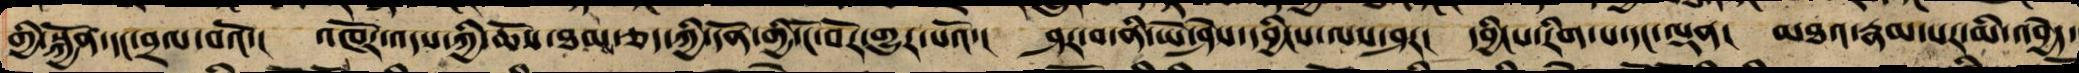གྱི་སྐྱོན་དང་བྲལ་བའོ་། འཁོར་འདས་ཀྱི་ཆོས་ཐམས་ཅད་ཀྱི་དོན་གྱི་ངོ་བོར་གྱུར་པའོ་། ཤར་བ་ནི་ཡེ་ཤེས་དབྱིངས་ལས་ཤར། དབྱིངས་རིག་པ་དང་ལྡན། མཐའ་རྣམ་པར་མི་འབྱེད་
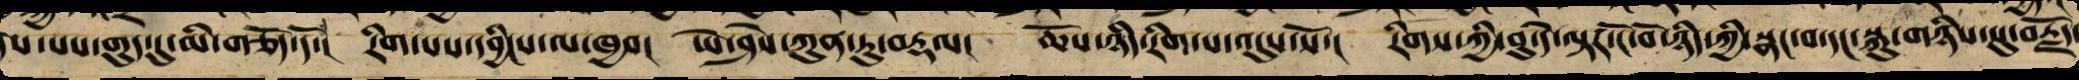ཤེས་པས་གུད་དུ་མི་གཅད་དོ་། རིག་པས་དབྱིངས་ལ་ཁྱབ། ཡེ་ཤེས་ཀུན་ཏུ་བརྡལ། ཆོས་ཉིད་རིག་པར་འདུས་སོ། རིགས་ཀྱི་བུ་དེ་ལྟར་ངོ་བོ་ཉིད་ཀྱི་སྣང་བ་དང་ཆོས་སྐུ་གཉིས་སུ་བརྗོད་
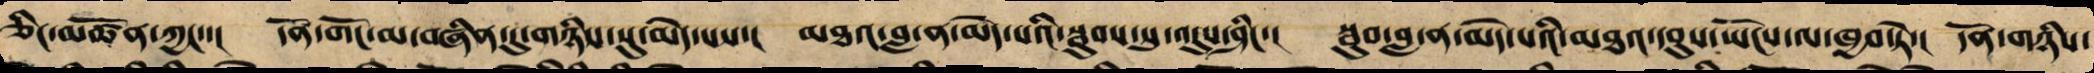ཅིང་མཚོན་ཀྱང་་། དོན་གོང་མ་བཞིན་དུ་གཉིས་སུ་མེད་པས་། མཐའ་བླ་ན་མེད་པའི་སྦུབས་སུ་འདུས་ཤིང་། སྦུབས་བླ་ན་མེད་པས་མཐའ་དབུས་ཡོངས་ལ་ཁྱབ་སྟེ་། དོན་གཉིས་
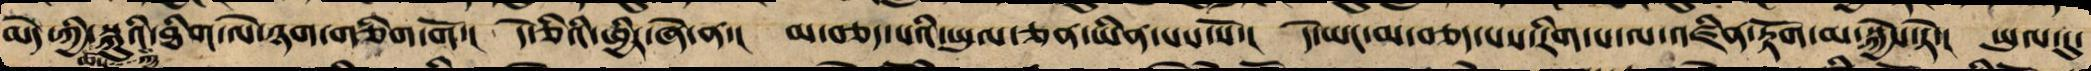མེད་ཆོས་ཀྱི་སྐུའི་ཐིག་ལེ་ཉགགཅིག་གོ་། དེ་ཅིའི་ཕྱིར་ཞེ་ན་། མ་བཅད་པའི་ཡུལ་ཅན་ཡིན་པས་སོ་། དེ་ཡང་མ་བཅད་པས་རིག་པ་ལ་འཛིན་རྟོག་མ་སྐྱེས་ཏེ་། ཡུལ་དུ་
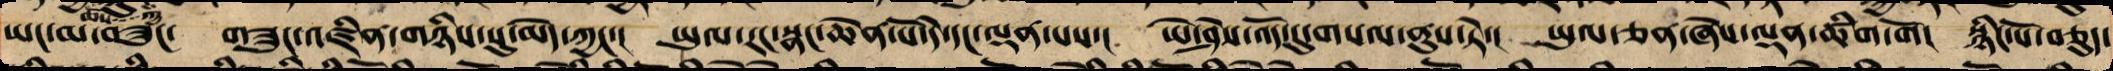ཡང་མ་བཟུང་། གཟུང་འཛིན་གཉིས་སུ་མེད་ཀྱང་། ཡུལ་རང་སྣང་ཆེན་པོ་དེ་དང་ལྡན་པས་། ཡེ་ཤེས་འོད་དུ་གསལ་ནུས་ཏེ་། ཡུལ་ཅན་ཞེས་ལྡན་ཚིག་གོ། སྙིང་པོ་བཅུད་
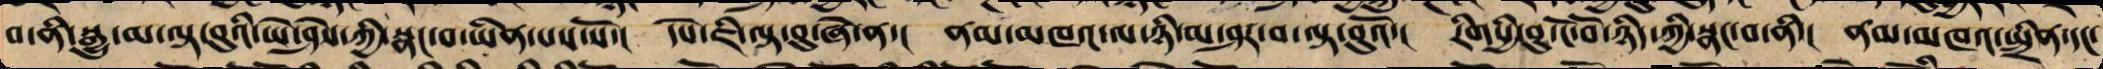བ་ནི་སྒྱུ་མ་ལྟ་བུས་ཡེ་ཤེས་ཀྱི་སྣང་བ་ཡིན་པས་སོ་། དཔེ་ཅི་ལྟ་བུ་ཞེ་ན་། ནམ་མཁའ་ལ་ཉི་མ་ཤར་བ་ལྟ་བུའོ་། རིགསྱི་བུ་ངོ་བོ་ཉིད་ཀྱི་སྣང་བ་ནི་། ནམ་མཁའ་སྤྲིན་དང་
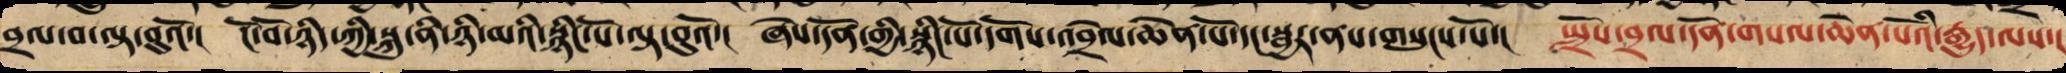བྲལ་བ་ལྟ་བུའོ་། ངོ་བོ་ཉིད་ཀྱི་སྐུ་ནི་ཉི་མའི་སྙིང་པོ་ལྟ་བུའོ་། ཞེས་དོན་གྱི་སྙིང་པོ་དགོས་འབྲེལ་ཆེན་པོ་དང་སྦྱར་ནས་གསུངས་སོ་། སྤྲོས་བྲལ་དོན་གསལ་ཆེན་པོའི་རྒྱུད་ལས་།
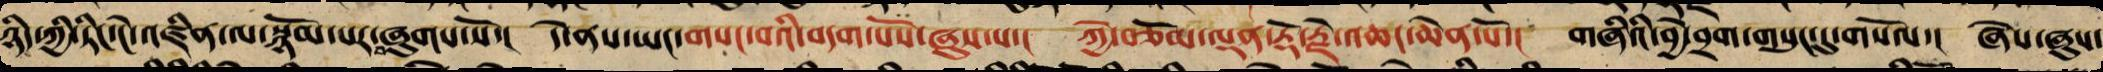ཉིད་ཀྱི་ཏིང་ངེ་འཛིན་ལ་སྙོམ་པར་ཞུགས་སོ་། དེ་ནས་ཡང་གསང་བའི་བདག་པོས་ཞུས་པ་། ཀྱེ་བཅོམ་ལྡན་རྡོ་རྗེ་འཆང་ཆེན་པོ་། གཞིའི་བྱེ་བྲག་གསུང་དུ་གསོལ་། ཞེས་ཞུས་
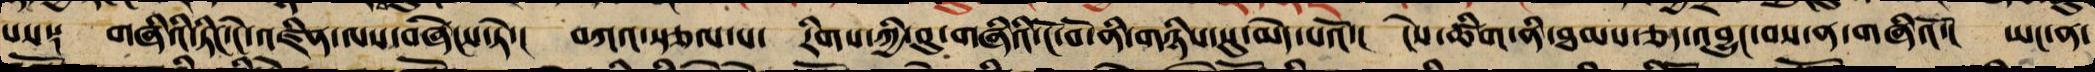པས༑ གཞིའི་ཏིང་ངེ་འཛིན་ལས་བཞེངས་ཏེ་། བཀའ་སྩལ་པ་། རིགས་ཀྱི་བུ་གཞིའི་ངོ་བོ་ནི་གཉིས་སུ་མེད་པའོ་། ངེས་ཚིག་ནི་ཐམས་ཅད་འབྱུང་བས་ན་གཞིའོ་། ཡང་ན་
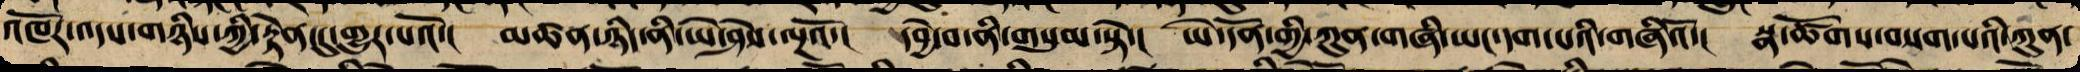འཁོར་འདས་གཉིས་ཀྱི་རྟེན་དུ་གྱུར་པའོ་། མཚན་ཉིད་ནི་ཡེ་ཤེས་ལྔའོ་། དབྱེ་བ་ནི་གསུམ་སྟེ་། ཡེ་དོན་གྱི་ཀུན་གཞི་ན་ཡང་དག་པའི་གཞིའོ་། སྣ་ཚོགས་བསག་པའི་ཀུན་
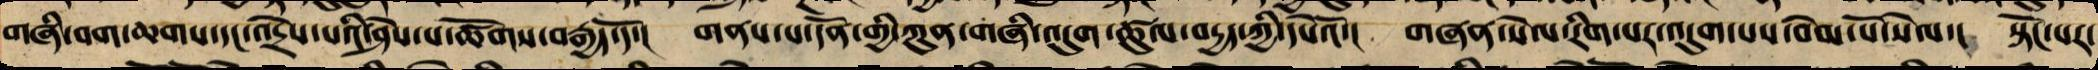གཞི་བག་ཆགས་དང་འདྲེས་པའི་ཤེས་པ་ཚོགས་བརྒྱད་དོ་། གནས་པ་དོན་གྱི་ཀུན་གཞི་འདུག་ཚུལ་བདྱད་ཀྱི་དཔེའོ་། གཞན་སེལ་རིག་པར་འདུག་པས་བེམ་པོ་སེལ་། སྟོང་པར་
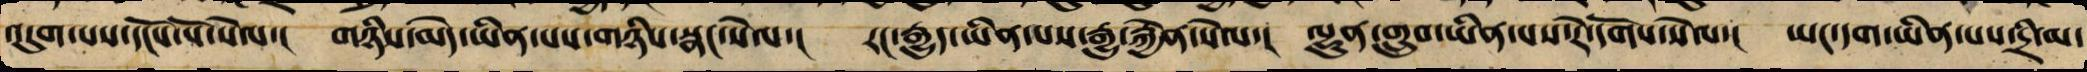འདུག་པས་དངོས་པོ་སེལ་། གཉིས་མེད་ཡིན་པས་གཉིས་སྣང་སེལ་། རང་བྱུང་ཡིན་པས་རྒྱུ་རྐྱེན་སེལ་། ལྷུན་གྲུབ་ཡིན་པས་རེ་དོགས་སེལ་། ཡང་དག་ཡིན་པས་དྲི་མ་
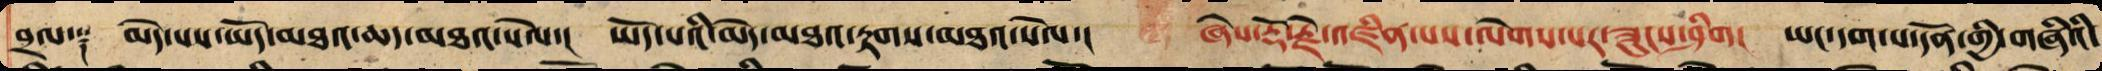བྲལ༑ མེད་པས་ཡོད་མཐའ་ཆད་མཐའ་སེལ་། ཡོད་པས་མེད་མཐའ་རྟགས་མཐའ་སེལ་། ཞེས་རྡོ་རྗེ་འཛིན་པ་ལེགས་པར་ཟུངས་ཤིག། ཡང་དག་པ་དོན་གྱི་གཞིའི་
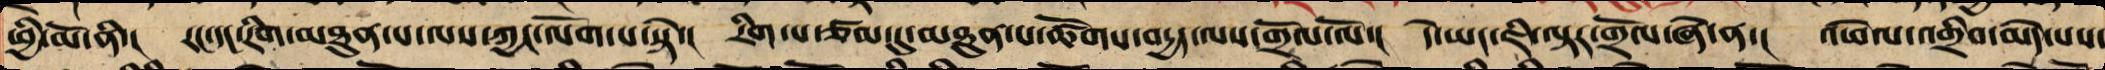ཕྱི་མོ་ནི་། རང་དང་རིགས་མཐུན་པ་ལས་ཀྱང་ལོག་པ་སྟེ་། རིག་པ་ཙམ་དུ་མཐུན་པ་ཚོགས་བདྱད་ལས་གྲོལ་ལོ་། དེ་ཡང་ཇི་ལྟར་གྲོལ་ཞེ་ན་། འཕེལ་འགྲིབ་མེད་པས་
